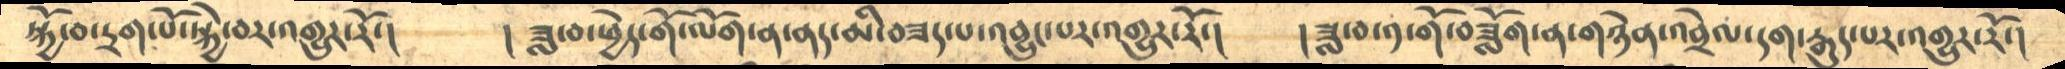སྐྱོ་བ་དྲག་པོ་སྐྱེ་བར་འགྱུར་རོ་།       ། ཟླ་བ་ཕྱེད་གོ་ལོག་ན་ནད་མི་བཟད་པ་འབྱུང་པར་འགྱུར་རོ་།     །ཟླ་བ་༡་གོ་བཟློག་ན་གཉེན་འབྲེལ་དག་རྒུད་པར་འགྱུར་རོ་།
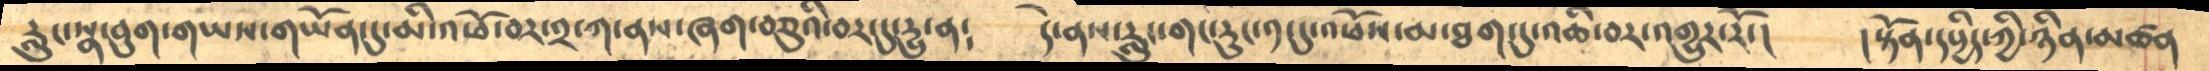རླུང་སྣ་བུག་གཡས་གཡོན་དུ་མི་འཕོ་བར་༢་ཀ་ནས་ཞག་བཅུའི་བར་དུ་དྱུ་ན༴      དེ་ནས་རླུང་གང་རུང་༡་དུ་འཕོས་མ་ཐག་དུ་འཆི་བར་འགྱུར་རོ་།     །སྟོན་དཔྱིད་ཀྱི་ཉིན་མཚན
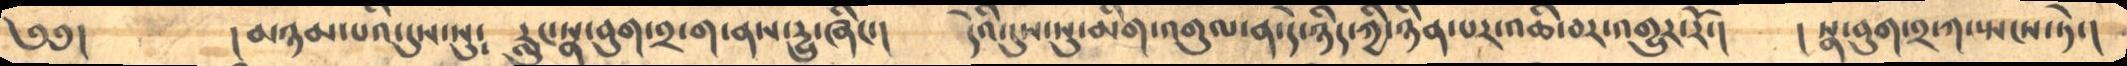༄༅།        །མཉམ་པའི་དུས་སུ༴   རླུང་སྣ་བུག་༢་ག་ནས་དྱུ་ཞིང་།      དེའི་དུས་སུ་མིག་འགུལ་ན་དེ་ཉིད་ཀྱི་ཉིན་པར་འཆི་བར་འགྱུར་རོ་།    །སྣ་བུག་༢་ཀ་སྤངས་ཏེ་།
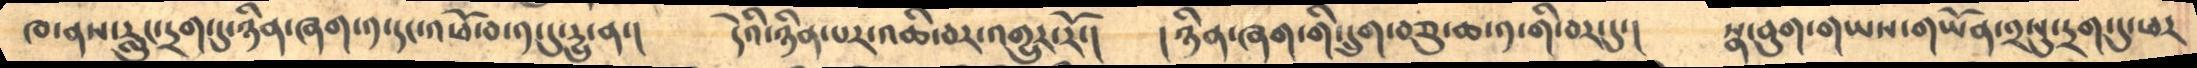ཁ་ནས་རླུང་དྲག་དུ་ཉིན་ཞག་༡་དང་འཕོ་བ་༡་དུ་དྱུ་ན་།      དེའི་ཉིན་པར་འཆི་བར་འགྱུར་རོ་།       །ཉིན་ཞག་གི་དྲུག་བཅུ་ཆ་༡་གི་བར་དུ་།      སྣ་བུག་གཡས་གཡོན་༢སུ་དྲག་དུ་ཕར
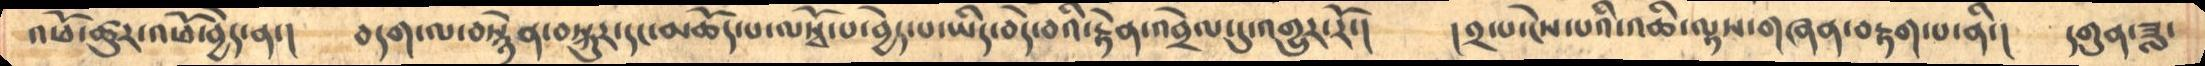འཕོ་ཚུར་འཕོ་བྱེད་ན་།    བདག་ལ་བསྙེན་བསྐུར་དང་མཆོད་པ་ལསྭོ་པ་བྱེད་པ་ཡིད་བདེ་བའི་རྟེན་འབྲེལ་དུ་འགྱུར་རོ་།     །༢་པ་ངེས་པའི་འཆི་ལྟས་གཞན་བརྟག་པ་ནི་།    དགུན་ཟླ་
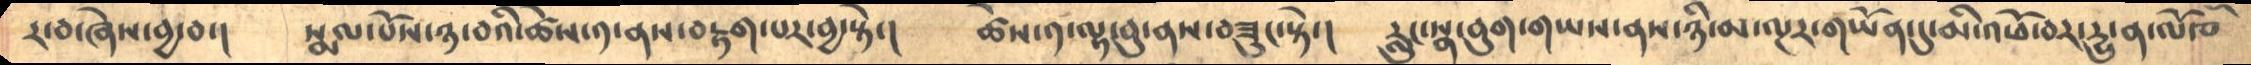ར་བ་ཞེས་བྱ་བ་།     སྨལ་པོས་ཉ་བའི་ཚེས་༡་ནས་བརྟག་པར་བྱ་སྟེ་།     ཚེས་༡་ལྟ་བུ་ནས་བཟུང་སྟེ་།     རླུང་སྣ་བུག་གཡས་ནས་ཉི་མ་ལྔར་གཡོན་དུ་མི་འཕོ་བར་དྱུ་ན་ལོ་བ
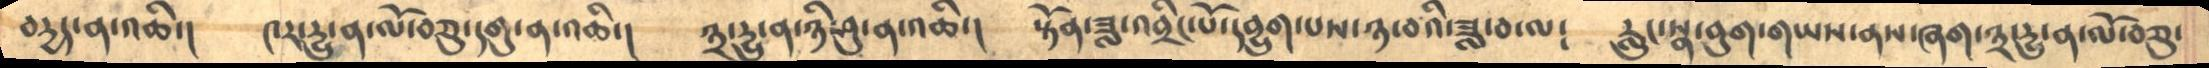བདྱད་ན་འཆི་།    ༤ར་དྱུ་ན་ལོ་བཅུ་དགུ་ན་འཆི་།      ༣་དྱུ་ན་ཉི་ཤུ་ན་འཆི་།     སྟོན་ཟླ་འབྲིང་པོ་དབྱུག་པས་ཉ་བའི་ཟླ་བ་ལ༴     རླུང་སྣ་བུག་གཡས་ནས་ཞག་༣་དྱུ་ན་ལོ་བཅུ་
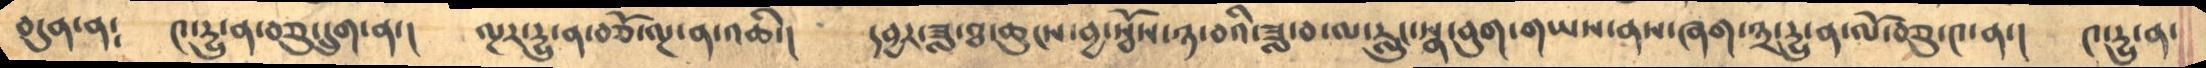བདུན་ན༴    ༤་དྱུ་ན་བཅུ་དྲུག་ན་།     ལྔར་དྱུ་ན་བཅོ་ལྔ་ན་འཆི་།    དབྱར་ཟླ་ཐ་ཆུངས་བྱ་སྭོས་ཉ་བའི་ཟླ་བ་ལ་རླུང་སྣ་བུག་གཡས་ནས་ཞག་༣་དྱུ་ན་ལོ་བཅུ་༤་ན་།   ༤་དྱུ་ན་
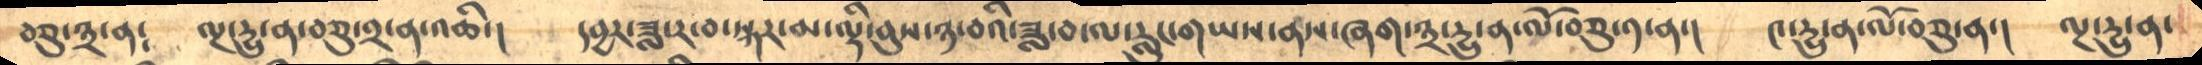བཅུ་༣་ན༴      ལྔ་དྱུ་ན་བཅུ་༢་ན་འཆི་།     དབྱར་ཟླ་ར་བ་སྐར་མ་ལྟི་བུས་ཉ་བའི་ཟླ་བ་ལ་རླུང་གཡས་ནས་ཞག་༣་དྱུ་ན་ལོ་བཅུ་༡་ན་།     ༤་དྱུ་ན་ལོ་བཅུ་ན་།     ལྔ་དྱུ་ན་
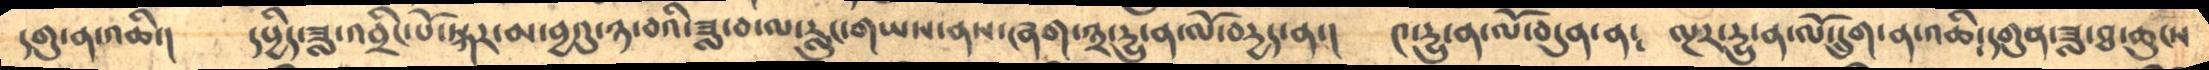དགུ་ན་འཆི་།     དཔྱིད་ཟླ་འབྲིང་པོ་སྐར་མ་བྱའུ་ཉ་བའི་ཟླ་བ་ལ་རླུང་གཡས་ནས་ཞག་༣་དྱུ་ན་ལོ་བདྱད་ན་།    ༤་དྱུ་ན་ལོ་བདུན་ན༴   ལྔར་དྱུ་ན་ལོ་དྲུག་ན་འཆི༴ དགུན་ཟླ་ཐ་ཆུངས
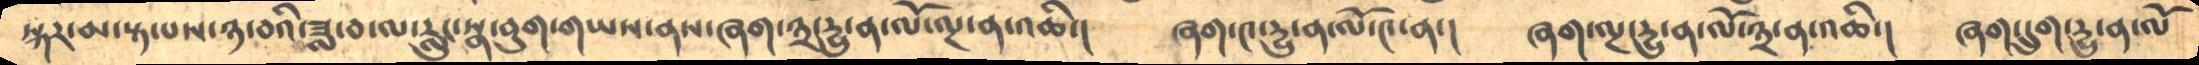སྐར་མ་སྟ་པས་ཉ་བའི་ཟླ་བ་ལ་རླུང་སྣ་བུག་གཡས་ནས་ཞག་༣་དྱུ་ན་ལོ་ལྔ་ན་འཆི་།    ཞག་༤་དྱུ་ན་ལོ་༤་ན་།   ཞག་ལྔ་དྱུ་ན་ལོ་༣་ན་འཆི་།   ཞག་དྲུག་དྱུ་ན་ལོ
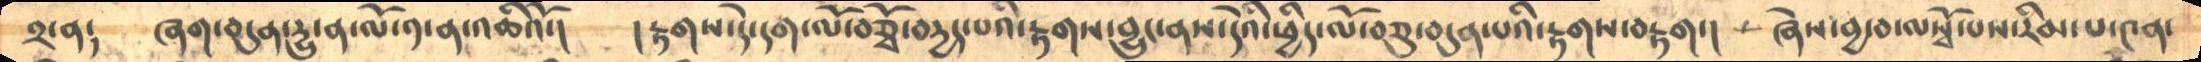༢་ན༴       ཞག་བདུན་དྱུ་ན་ལོ་༡་ན་འཆིའོ་།      །རྟགས་དེ་དག་ལོ་བཅྭོ་བདྱད་པའི་རྟགས་བྱུང་ནས་དེའི་ཕྱེད་ལོ་བཅུ་བདུན་པའི་རྟགས་བརྟག་།    ཞེས་བྱ་བ་ལསྭོ་པས་རིམ་པ་༤ན་
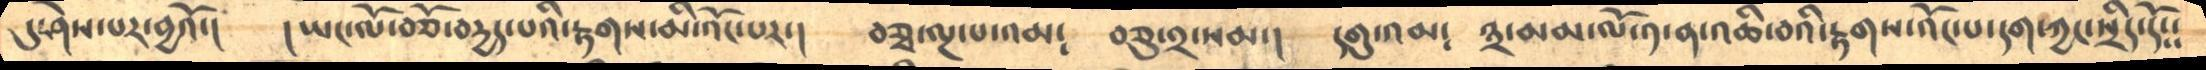དུ་ཤེས་པར་བྱའོ་།     །ཡང་ལོ་བཅོ་བདྱད་པའི་རྟགས་མི་འོང་པར་།     བཅྭ་ལྔ་པ་འམ༴   བཅུ་༢་སམ་།     དགུ་འམ༴    ༣་མམ་ལོ་༡་ན་འཆི་བའི་རྟགས་འོང་པ་དག་ཀྱང་སྲིད་དོ༴༴
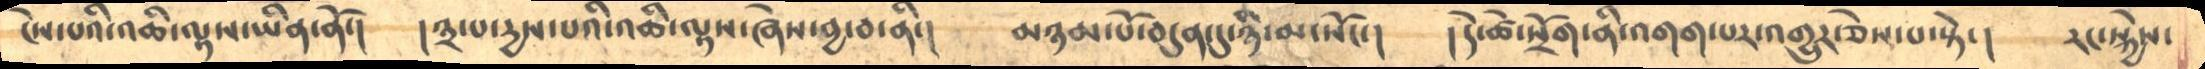ངེས་པའི་འཆི་ལྟས་ཡིན་ནོ་།     །༣་པ་དྱས་པའི་འཆི་ལྟས་ཞེས་བྱ་བ་ནི་།     མཉམ་པོ་བདུན་དུ་ཉི་མ་སོང་།    །དེ་ཚེ་སྲོག་ནི་འགག་པར་འགྱུར་ཅེས་པ་སྟེ་།    རང་སྐྱེས་
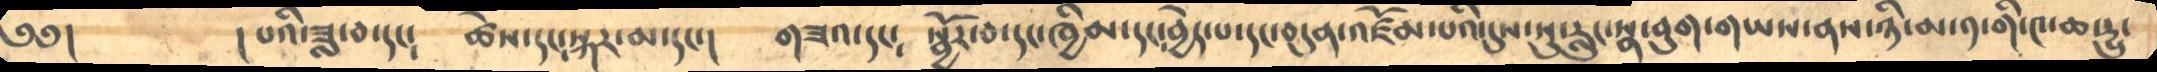༄༅།       །པའི་ཟླ་བ་དང༴    ཚེས་དང་སྐར་མ་དང་།   གཟའ་དང༴  སྦྱོར་བ་དང་ཁྱིམ་དང་བྱེད་པ་དང་བདུན་འཛོམ་པའི་དུས་སུ་རླུང་སྣ་བུག་གཡས་ནས་ཉི་མ་༡་གི་༤་ཆ་དྱུ་
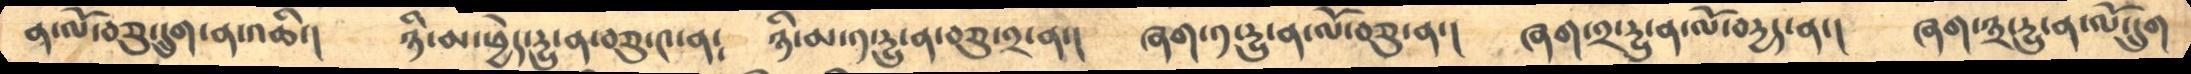ན་ལོ་བཅུ་དྲུག་ན་འཆི་།     ཉི་མ་ཕྱེད་དྱུ་ན་བཅུ་༤་ན༴     ཉི་མ་༡་དྱུ་ན་བཅུ་༢་ན་།     ཞག་༡་དྱུ་ན་ལོ་བཅུ་ན་།     ཞག་༢་དྱུ་ན་ལོ་བདྱད་ན་།    ཞག་༣་དྱུ་ན་ལོ་དྲུག
